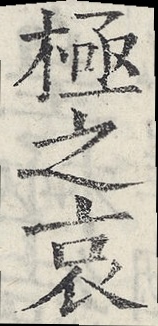極之哀
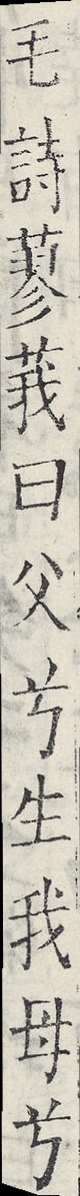毛詩蓼莪曰父兮生我母兮
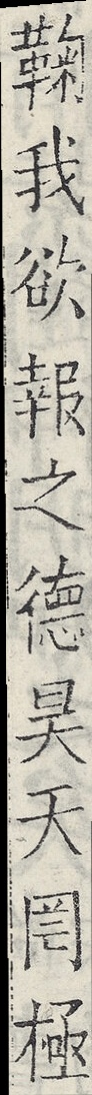鞠我欲報之德昊天罔極
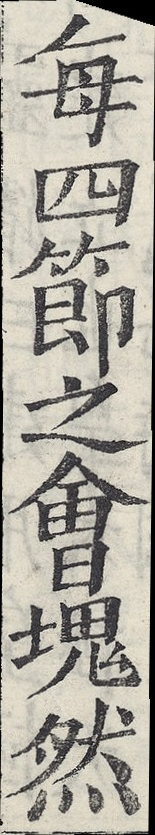每四節之會塊然
